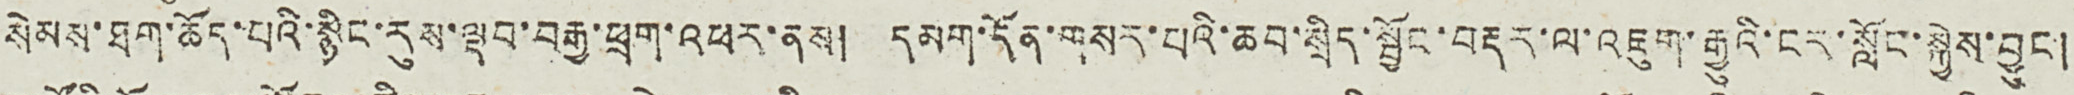སེམས་ཐག་ཚོད་པའི་སྙིང་རུས་ལྡབ་བརྒྱ་ཕྲག་འཕར་ནས། དམག་དོན་གསར་པའི་ཆབ་སྲིད་སྦྱོང་བརྡར་ལ་འཇུག་རྒྱུའི་ངར་སློང་སྐྱེས་བྱུང་།
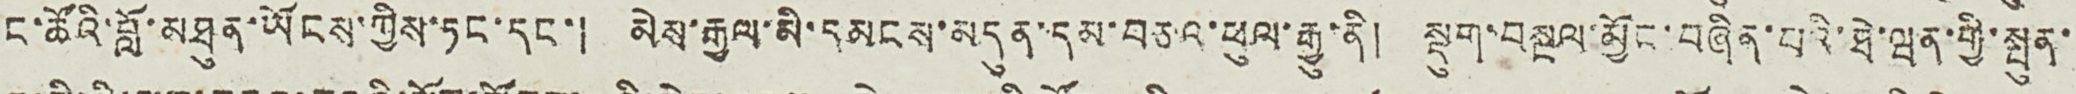ང་ཚོའི་བློ་མཐུན་ཡོངས་ཀྱིས་ཏང་དང་། མེས་རྒྱལ་མི་དམངས་མདུན་དམ་བཅའ་ཕུལ་རྒྱུ་ནི། སྡུག་བསྔལ་མྱོང་བཞིན་པའི་ཐེ་ཝན་གྱི་སྤུན་
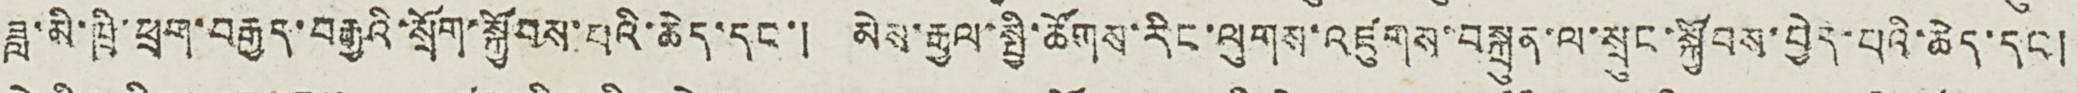ཟླ་མི་ཁྲི་ཕྲག་བརྒྱད་བརྒྱའི་སྲོག་སྐྱོབས་པའི་ཆེད་དང་། མེས་རྒྱལ་སྤྱི་ཚོགས་རིང་ལུགས་འཛུགས་བསྐྲུན་ལ་སྲུང་སྐྱོབས་བྱེད་པའི་ཆེད་དང །
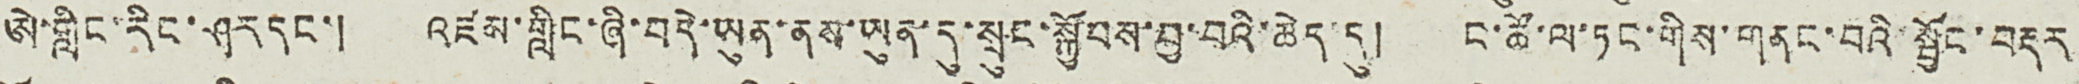ཨེ་གླིང་རིང་ཤར དང་། འཛམ་གླིང་ཞི་བདེ་ཡུན་ནས་ཡུན་དུ་སྲུང་སྐྱོབས་བྱ་བའི་ཆེད་དུ། ང་ཚོ་ལ་ཏང་གིས་གནང་བའི་སྦྱོང་བརྡར
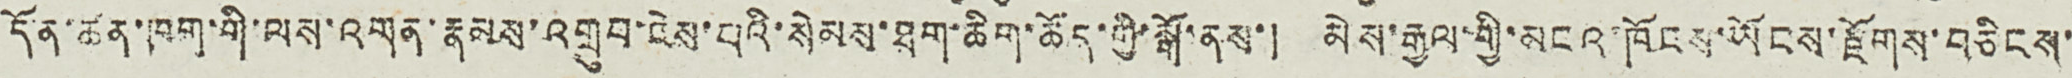དོན་ཚན་ཁག་གི་ལས་འགན་རྣམས་འགྲུབ་ངེས་པའི་སེམས་ཐག་ཆིག་ཚོད་གྱི་སྒོ་ནས་། མེས་རྒྱལ་གྱི་མངའ་ཁོངས་ཡོངས་རྫོགས་བཅིངས་
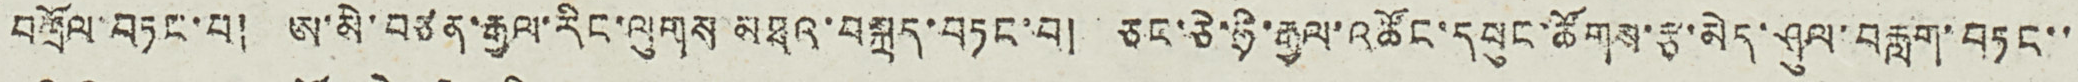བགྲོལ་བཏང་བ། ཨ་མེ་བཙན་རྒྱལ་རིང་ལུགས་མཐའ་བསྐྲད་བཏང་བ། ཅང་ཅེ་ཧྲི་རྒྱལ་འཚོང་དཔུང་ཚོགས་རྩ་མེད་ཤུལ་བརླག་བཏང་་
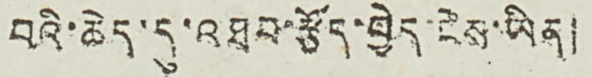བའི་ཆེད་དུ་འཐབ་རྩོད་བྱེད་ངེས་ཡིན།
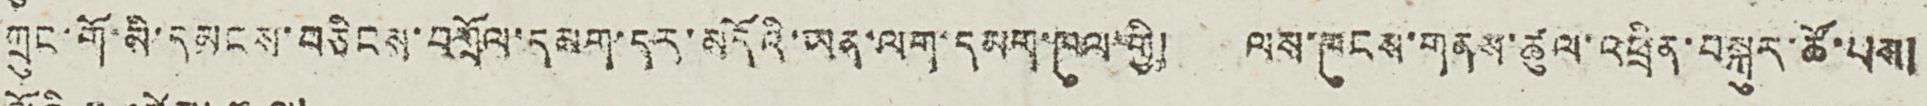ཀྲུང་གོ་མི་དམངས་བཅིངས་བཀྲོལ་དམག་དར་མདོའི་ཡན་ལག་དམག་ཁུལ་གྱི། ལས་ཁུངས་གནས་ཚུལ་འཕྲིན་བསྐུར་ཚོ་པས།
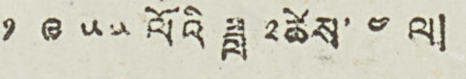༡ ༩ ༥ ༥ ལོའི ཟླ ༢ཚེས་ ༤ ལ།
